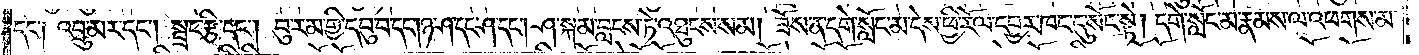དང་༑ འབྲུ་མར་དང༌། སྦྲང་རྩི་དང༌། བུ་རམ་གྱི་དབུ་བ་དང༌། ཉ་ཤ་དང་ཤ་དང༌། ཤ་སྐམ་བླངས་ཏེ་འཐུངས་སམ། ཟོས་ན་དགེ་སློང་མ་དེས་ཕྱི་རོལ་དབྱར་ཁང་དུ་སོང་སྟེ། དགེ་སློང་མ་རྣམས་ལ་འཕགས་མ་
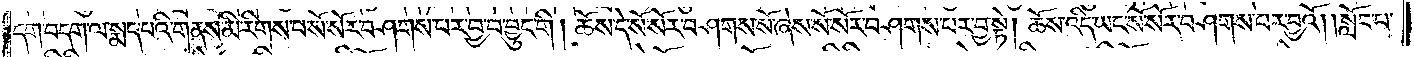དག་བདག་ལ་སྨད་པའི་གནས་མི་རིགས་པ་སོ་སོར་བཤགས་པར་བྱ་བ་བྱུང་གི ། ཆོས་དེ་སོ་སོར་བཤགས་སོ་ཞེས་སོ་སོར་བཤགས་པར་བྱ་སྟེ། ཆོས་འདི་ཡང་སོ་སོར་བཤགས་པར་བྱའོ། །སློང་པ་
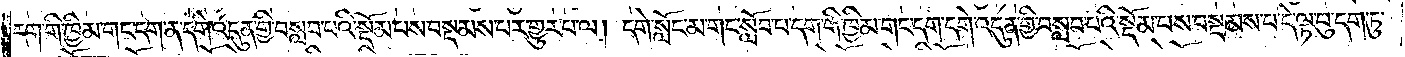དག་གི་ཁྱིམ་གང་དག་ན་དགེ་འདུན་གྱི་བསླབ་པའི་སྡོམ་པས་བསྡམས་པར་གྱུར་པ་ལ། དགེ་སློང་མ་གང་སློབ་པ་དག་གི་ཁྱིམ་གང་དག་དགེ་འདུན་གྱི་བསླབ་པའི་སྡོམ་པས་བསྡམས་པ་དེ་ལྟ་བུ་དག་ཏུ་
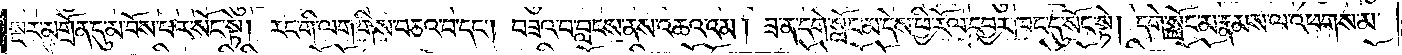སྔར་མགྲོན་དུ་མ་བོས་པར་སོང་སྟེ། རང་གི་ལག་གིས་བཅའ་བ་དང༌། བཟའ་བ་བླངས་ནས་འཆའ་འམ། ཟ་ན་དགེ་སློང་མ་དེས་ཕྱི་རོལ་དབྱར་ཁང་དུ་སོང་སྟེ། དགེ་སློང་མ་རྣམས་ལ་འཕགས་མ་
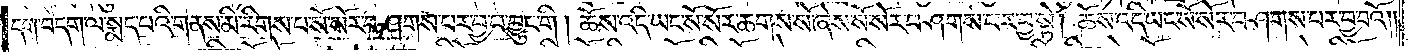དག་བདག་ལ་སྨད་པའི་གནས་མི་རིགས་པ་སོ་སོར་བཤགས་པར་བྱ་བ་བྱུང་གི །ཆོས་འདི་ཡང་སོ་སོར་ཆགས་སོ་ཞེས་སོ་སོར་བཤགས་པར་བྱ་སྟེ། ཆོས་འདི་ཡང་སོ་སོར་བཤགས་པར་བྱ་བའོ༎
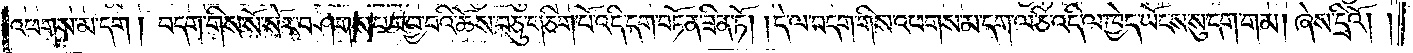འཕགས་མ་དག ། བདག་གིས་སོ་སོར་བཤགས་པར་བྱ་བའི་ཆོས་བཅུ་གཅིག་པོ་འདི་དག་བཏོན་ཟིན་ཏོ། །དེ་ལ་བདག་གིས་འཕགས་མ་དག་ལ་ཅི་འདི་ལ་ཁྱེད་ཡོངས་སུ་དག་གམ། ཞེས་དྲིའོ། །
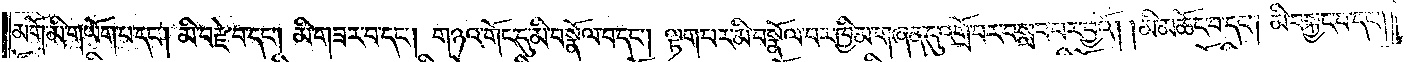མགོ་མི་གཡོག་པ་དང༌། མི་བརྫེ་བ་དང༌། མི་གཟར་བ་དང༌། གཉའ་གོང་དུ་མི་བསྣོལ་བ་དང༌། ལྟག་པར་མི་བསྣོལ་བར་ཁྱིམ་གཞན་དུ་འགྲོ་བར་བསླབ་པར་བྱའོ། །མི་མཆོང་བ་དང༌། མི་བསྐྱང་བ་དང༌།
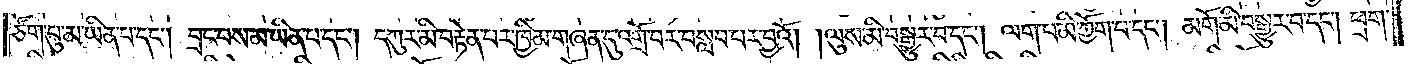ཙོག་པུ་མ་ཡིན་པ་དང༌། བྲང་བས་མ་ཡིན་པ་དང༌། དཀུར་མི་བརྟེན་པར་ཁྱིམ་གཞན་དུ་འགྲོ་བར་བསླབ་པར་བྱའོ། །ལུས་མི་བསྒྱུར་བ་དང༌། ལག་པ་མི་ཀྱོག་པ་དང༌། མགོ་མི་བསྒྱུར་བ་དང༌། ཕྲག་
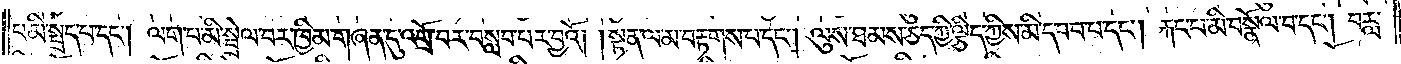པ་མི་སྤྲད་པ་དང༌། ལག་པ་མི་སྦྲེལ་བར་ཁྱིམ་གཞན་དུ་འགྲོ་བར་བསླབ་པར་བྱའོ། །སྟན་ལ་མ་བརྟགས་པ་དང༌། ལུས་ཐམས་ཅད་ཀྱི་ལྕིད་ཀྱིས་མི་དབབ་པ་དང༌། རྐང་པ་མི་བསྣོལ་བ་དང༌། བརླ་
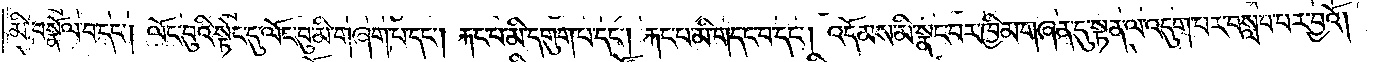མི་བསྣོལ་བ་དང༌། ལོང་བུའི་སྟེང་དུ་ལོང་བུ་མི་གཞག་པ་དང༌། རྐང་པ་མི་དགུག་པ་དང༌། རྐང་པ་མི་གདང་བ་དང༌། འདོམས་མི་སྣང་བར་ཁྱིམ་གཞན་དུ་སྟན་ལ་འདུག་པར་བསླབ་པར་བྱའོ།
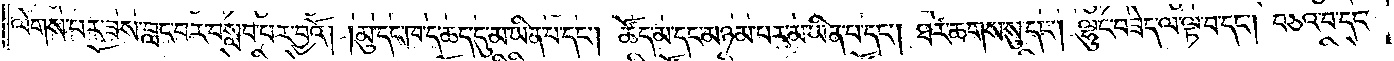ལེགས་པར་ཟས་བླང་བར་བསླབ་པར་བྱའོ། །མུ་དང་ཁ་ད་ཆེད་དུ་མ་ཡིན་པ་དང༌། ཚོད་མ་དང་མཉམ་པར་མ་ཡིན་པ་དང༌། ཐར་ཆགས་སུ་དང༌། ལྷུང་བཟེད་ལ་ལྟ་བ་དང༌། བཅའ་བ་དང་
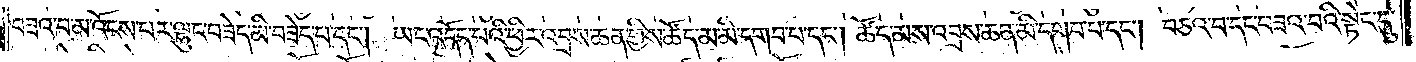བཟའ་བ་མ་འོངས་པར་ལྷུང་བཟེད་མི་བཟེད་པ་དང༌། ཡང་འདོད་པའི་ཕྱིར་འབྲས་ཆན་གྱིས་ཚོད་མ་མི་དགབ་པ་དང༌། ཚོད་མས་འབྲས་ཆན་མི་དགབ་པ་དང༌། བཅའ་བ་དང་བཟའ་བའི་སྟེང་དུ་
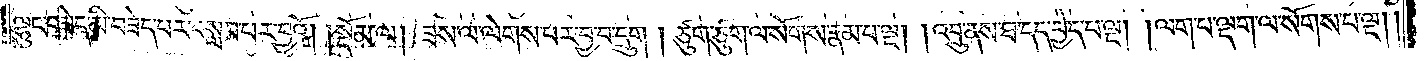ལྷུང་བཟེད་མི་བཟེད་པར་བསླབ་པར་བྱའོ། །སྡོམ་ལ། ཟས་ལ་ལེགས་པར་བྱ་བ་དྲུག །ཙུག་ཙུག་ལ་སོགས་རྣམ་པ་ལྔ། །འབྲུ་ནས་ཐ་དད་བྱེད་པ་ལྔ། ལག་པ་ལྡག་ལ་སོགས་པ་ལྔ། །
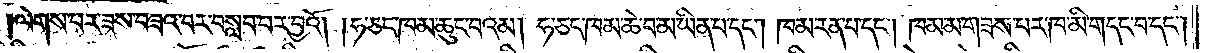ལེགས་པར་ཟས་བཟའ་བར་བསླབ་པར་བྱའོ། །ཧ་ཅང་ཁམ་ཆུང་བའམ། ཧ་ཅང་ཁམ་ཆེ་བ་མ་ཡིན་པ་དང༌། ཁམ་རན་པ་དང༌། ཁམ་མ་གཟས་པར་ཁ་མི་གདང་བ་དང༌།
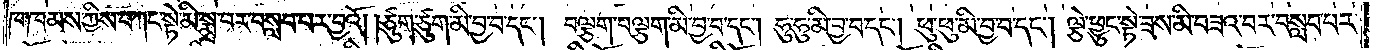ཁ་ཁམས་ཀྱིས་བཀང་སྟེ་མི་སྨྲ་བར་བསླབ་པར་བྱའོ། །ཙུག་ཙུག་མི་བྱ་བ་དང༌། བལྕག་བལྕག་མི་བྱ་བ་དང༌། ཧུ་ཧུ་མི་བྱ་བ་དང༌། ཕུ་ཕུ་མི་བྱ་བ་དང༌། ལྕེ་ཕྱུང་སྟེ་ཟས་མི་བཟའ་བར་བསླབ་པར་
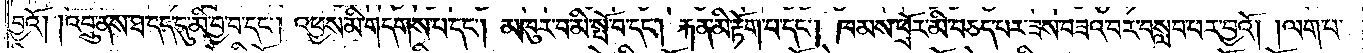བྱའོ། །འབྲུ་ནས་ཐ་དད་དུ་མི་བྱ་བ་དང༌། འཕྱས་མི་གདགས་པ་དང༌། མཁུར་བ་མི་སྤོ་བ་དང༌། རྐན་མི་རྟོག་པ་དང༌། ཁམས་ཕྲོར་མི་བཅད་པར་ཟས་བཟའ་བར་བསླབ་པར་བྱའོ། །ལག་པ་
